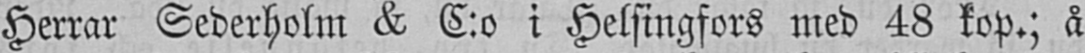Herrar Sederholm & C:o i Helsingfors med 48 kop.; å
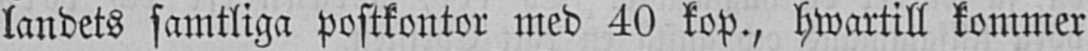landets samtliga postkontor med 40 kop., hwartill kommer
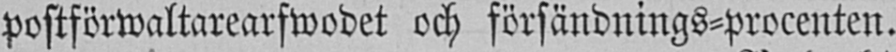postförwaltarearfwodet och försändnings-procenten.
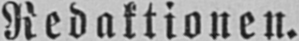Redaktionen.
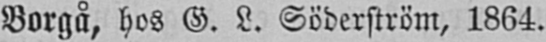Borgå, hos G. L. Söderström, 1864.
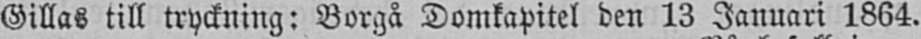Gillas till tryckning: Borgå Domkapitel den 13 Januari 1864.
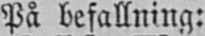På befallning:
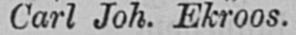Carl Joh. Ekroos.
